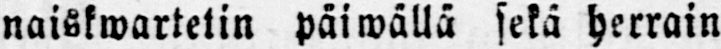naiskwartetin päiwällä sekä herrain
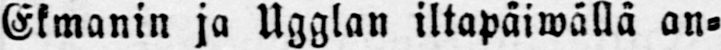Ekmanin ja Ugglan iltapäiwällä an-
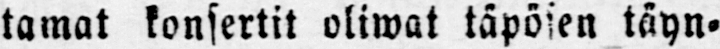tamat konsertit oliwat täpösen täyn-
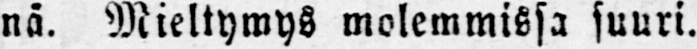nä. Mieltymys molemmissa suuri.
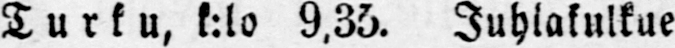Turku, k:lo 9.35. Juhlakulkue
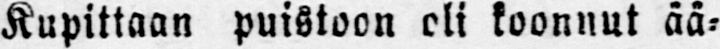Kupittaan puistoon oli koonnut ää-
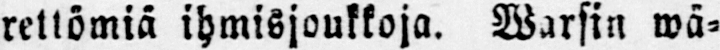rettömiä ihmisjoukkoja. Warsin wä-
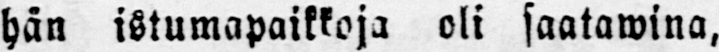hän istumapaikkoja oli saatawina,
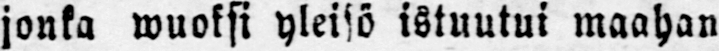jonka wuoksi yleisö istuutui maahan
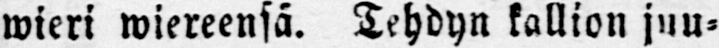wieri wiereensä. Tehdyn kallion juu-
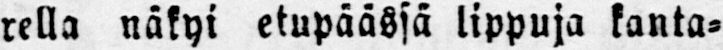rella näkyi etupäässä lippuja kanta-
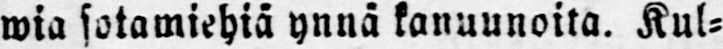wia sotamiehiä ynnä kanuunoita. Kul-
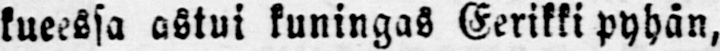kueessa astui kuningas Eerikki pyhän,
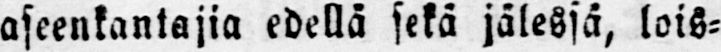aseenkantajia edellä sekä jälessä, lois-
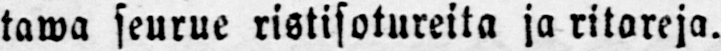tawa seurue ristisotureita ja ritareja.
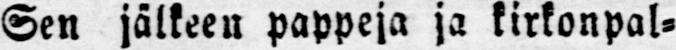Sen jälkeen pappeja ja kirkonpal-
